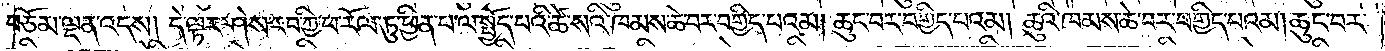བཅོམ་ལྡན་འདས། དེ་ལྟར་ཤེས་རབ་ཀྱི་ཕ་རོལ་ཏུ་ཕྱིན་པ་ལ་སྤྱོད་པའི་ཚེ་སའི་ཁམས་ཆེ་བར་བགྱིད་པའམ། ཆུང་བར་བགྱིད་པའམ། ཆུའི་ཁམས་ཆེ་བར་བགྱིད་པའམ། ཆུང་བར་
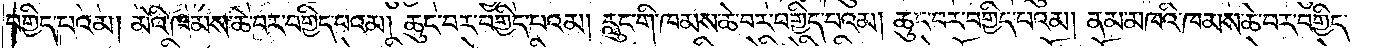བགྱིད་པའམ། མེའི་ཁམས་ཆེ་བར་བགྱིད་པའམ། ཆུང་བར་བགྱིད་པའམ། རླུང་གི་ཁམས་ཆེ་བར་བགྱིད་པའམ། ཆུང་བར་བགྱིད་པའམ། ནམ་མཁའི་ཁམས་ཆེ་བར་བགྱིད་
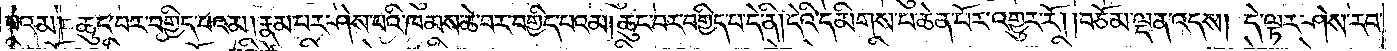པའམ། ཆུང་བར་བགྱིད་པའམ། རྣམ་པར་ཤེས་པའི་ཁམས་ཆེ་བར་བགྱིད་པའམ། ཆུང་བར་བགྱིད་པ་དེ་ནི། དེའི་དམིགས་པ་ཆེན་པོར་འགྱུར་རོ། །བཅོམ་ལྡན་འདས། དེ་ལྟར་ཤེས་རབ་
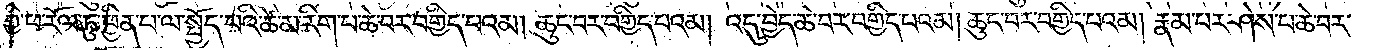ཀྱི་ཕ་རོལ་ཏུ་ཕྱིན་པ་ལ་སྤྱོད་པའི་ཚེ་མ་རིག་པ་ཆེ་བར་བགྱིད་པའམ། ཆུང་བར་བགྱིད་པའམ། འདུ་བྱེད་ཆེ་བར་བགྱིད་པའམ། ཆུང་བར་བགྱིད་པའམ། རྣམ་པར་ཤེས་པ་ཆེ་བར་
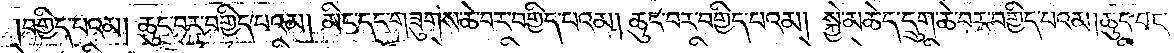བགྱིད་པའམ། ཆུང་བར་བགྱིད་པའམ། མིང་དང་གཟུགས་ཆེ་བར་བགྱིད་པའམ། ཆུང་བར་བགྱིད་པའམ། སྐྱེ་མཆེད་དྲུག་ཆེ་བར་བགྱིད་པའམ། ཆུང་བར་
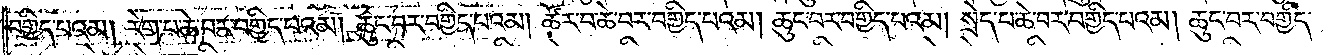བགྱིད་པའམ། རེག་པ་ཆེ་བར་བགྱིད་པའམ། ཆུང་བར་བགྱིད་པའམ། ཚོར་བ་ཆེ་བར་བགྱིད་པའམ། ཆུང་བར་བགྱིད་པའམ། སྲེད་པ་ཆེ་བར་བགྱིད་པའམ། ཆུང་བར་བགྱིད་
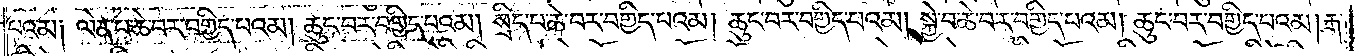པའམ༑ ལེན་པ་ཆེ་བར་བགྱིད་པའམ། ཆུང་བར་བགྱིད་པའམ། སྲིད་པ་ཆེ་བར་བགྱིད་པའམ། ཆུང་བར་བགྱིད་པའམ། སྐྱེ་བ་ཆེ་བར་བགྱིད་པའམ། ཆུང་བར་བགྱིད་པའམ། རྒ་
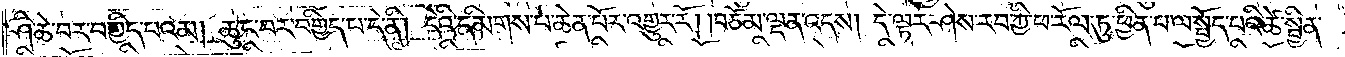ཤི་ཆེ་བར་བགྱིད་པའམ། ཆུང་བར་བགྱིད་པ་དེ་ནི། དེའི་དམིགས་པ་ཆེན་པོར་འགྱུར་རོ། །བཅོམ་ལྡན་འདས། དེ་ལྟར་ཤེས་རབ་ཀྱི་ཕ་རོལ་ཏུ་ཕྱིན་པ་ལ་སྤྱོད་པའི་ཚེ་སྦྱིན་
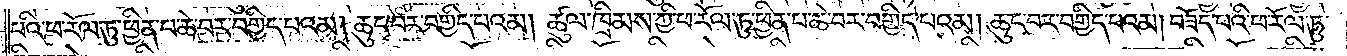པའི་ཕ་རོལ་ཏུ་ཕྱིན་པ་ཆེ་བར་བགྱིད་པའམ། ཆུང་བར་བགྱིད་པའམ། ཚུལ་ཁྲིམས་ཀྱི་ཕ་རོལ་ཏུ་ཕྱིན་པ་ཆེ་བར་བགྱིད་པའམ། ཆུང་བར་བགྱིད་པའམ། བཟོད་པའི་ཕ་རོལ་ཏུ་
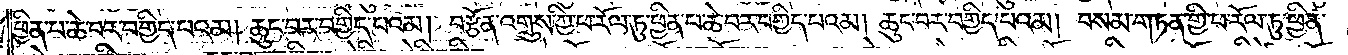ཕྱིན་པ་ཆེ་བར་བགྱིད་པའམ། ཆུང་བར་བགྱིད་པའམ། བརྩོན་འགྲུས་ཀྱི་ཕ་རོལ་ཏུ་ཕྱིན་པ་ཆེ་བར་བགྱིད་པའམ། ཆུང་བར་བགྱིད་པའམ། བསམ་གཏན་གྱི་ཕ་རོལ་ཏུ་ཕྱིན་
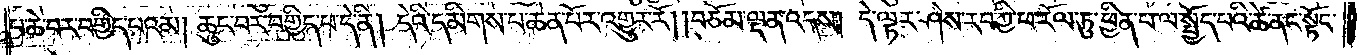པ་ཆེ་བར་བགྱིད་པའམ། ཆུང་བར་བགྱིད་པ་དེ་ནི། དེའི་དམིགས་པ་ཆེན་པོར་འགྱུར་རོ། །བཅོམ་ལྡན་འདས། དེ་ལྟར་ཤེས་རབ་ཀྱི་ཕ་རོལ་ཏུ་ཕྱིན་པ་ལ་སྤྱོད་པའི་ཚེ་ནང་སྟོང་
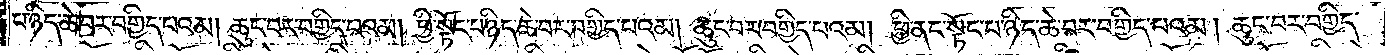པ་ཉིད་ཆེ་བར་བགྱིད་པའམ། ཆུང་བར་བགྱིད་པའམ། ཕྱི་སྟོང་པ་ཉིད་ཆེ་བར་བགྱིད་པའམ། ཆུང་བར་བགྱིད་པའམ། ཕྱི་ནང་སྟོང་པ་ཉིད་ཆེ་བར་བགྱིད་པའམ། ཆུང་བར་བགྱིད་
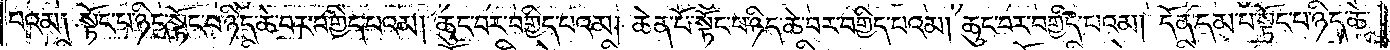པའམ༑ སྟོང་པ་ཉིད་སྟོང་པ་ཉིད་ཆེ་བར་བགྱིད་པའམ། ཆུང་བར་བགྱིད་པའམ། ཆེན་པོ་སྟོང་པ་ཉིད་ཆེ་བར་བགྱིད་པའམ། ཆུང་བར་བགྱིད་པའམ། དོན་དམ་པ་སྟོང་པ་ཉིད་ཆེ་
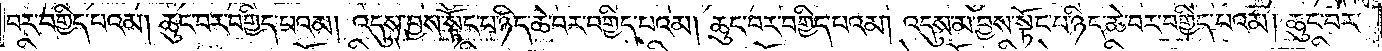བར་བགྱིད་པའམ། ཆུང་བར་བགྱིད་པའམ། འདུས་བྱས་སྟོང་པ་ཉིད་ཆེ་བར་བགྱིད་པའམ། ཆུང་བར་བགྱིད་པའམ། འདུས་མ་བྱས་སྟོང་པ་ཉིད་ཆེ་བར་བགྱིད་པའམ། ཆུང་བར་
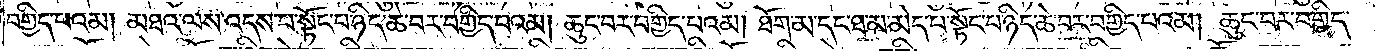བགྱིད་པའམ། མཐའ་ལས་འདས་པ་སྟོང་པ་ཉིད་ཆེ་བར་བགྱིད་པའམ། ཆུང་བར་བགྱིད་པའམ། ཐོག་མ་དང་ཐ་མ་མེད་པ་སྟོང་པ་ཉིད་ཆེ་བར་བགྱིད་པའམ། ཆུང་བར་བགྱིད་
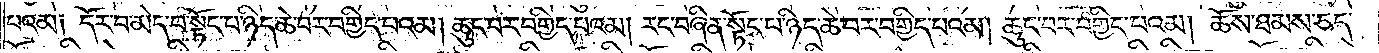པའམ༑ དོར་བ་མེད་པ་སྟོང་པ་ཉིད་ཆེ་བར་བགྱིད་པའམ། ཆུང་བར་བགྱིད་པའམ། རང་བཞིན་སྟོང་པ་ཉིད་ཆེ་བར་བགྱིད་པའམ། ཆུང་བར་བགྱིད་པའམ། ཆོས་ཐམས་ཅད་
